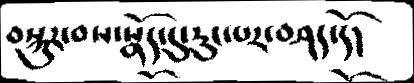བསྐུར་བས་སྣོད་དུ་རུང་པར་བཤད་དོ།
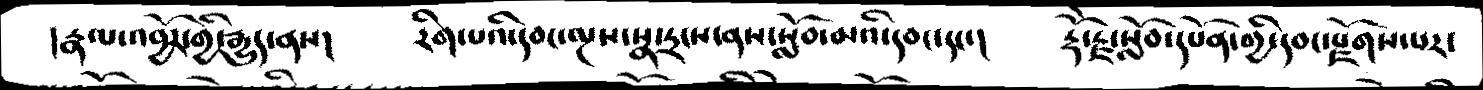།རྣལ་འབྱོར་གྱི་རྒྱུད་ནས།    རིག་པའི་དབང་ལྔས་སྣ་དྲངས་ནས་སློབ་མའི་དབང་དང་།   རྡོ་རྗེ་སློབ་དཔོན་གྱི་དབང་རྫོགས་པར་
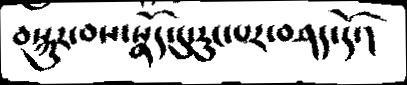བསྐུར་བས་སྣོད་དུ་རུང་པར་བཤད་དོ་།
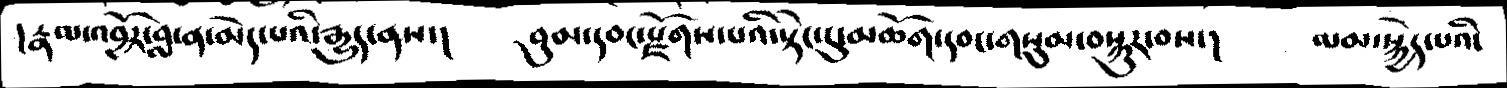།རྣལ་འབྱོར་བླ་ན་མེད་པའི་རྒྱུད་ནས་།    བུམ་དབང་རྫོགས་པའི་སྟེང་དུ་མཆོག་དབང་གསུམ་བསྐུར་བས།    ལམ་སྐྱེད་པའི་
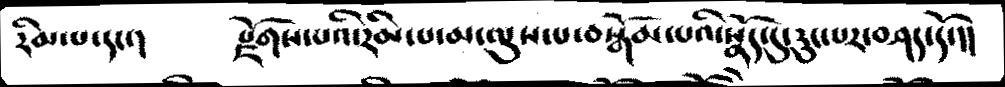རིམ་པ་དང་།   རྫོགས་པའི་རིམ་པ་མ་ལུས་པ་བསྒོམ་པའི་སྣོད་དུ་རུང་པར་བཤད་དོ་།།
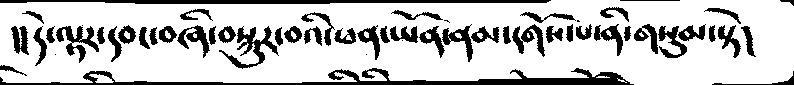།།དེ་ལྟར་དབང་བཞི་བསྐུར་བའི་ཕན་ཡོན་ནམ་དགོས་པ་ནི་གསུམ་སྟེ།
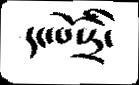དང་པོ་ཏྲི་
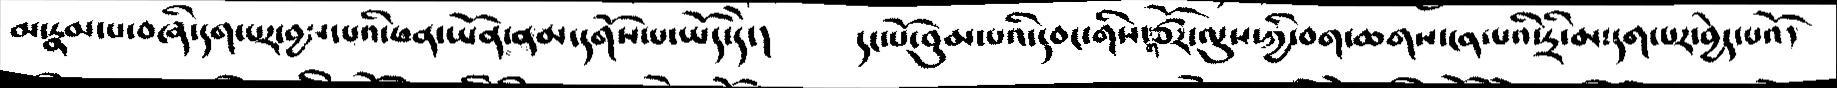མ་རྣམ་པ་བཞི་དག་པར་བྱས་པའི་ཕན་ཡོན་ནམ་དགོས་པ་ཡོད་དེ་།   དང་པོ་བུམ་པའི་དབང་གིས་གཙོར་ལུས་ཀྱི་བག་ཆགས་ངན་པའི་དྲི་མ་དག་པར་བྱེད་པའོ།
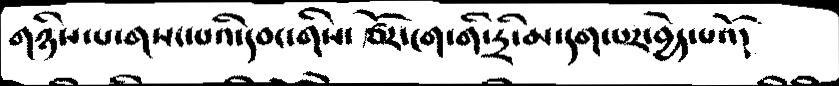གཉིས་པ་གསང་པའི་དབང་གིས་ཙོར་ངག་གི་དྲི་མ་དག་པར་བྱེད་པའོ།
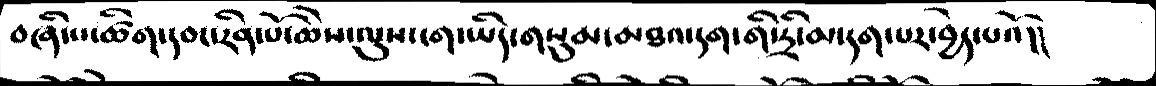བཞི་པ་ཚིག་དབང་རིན་པོ་ཆེས་ལུས་ངག་ཡིད་གསུམ་མཐའ་དག་གི་དྲི་མ་དག་པར་བྱེད་པའོ།།
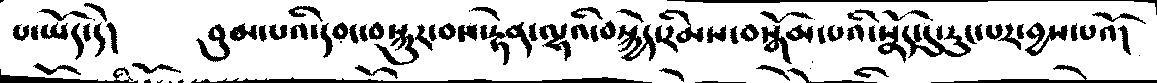པ་ཡོད་དེ།   བུམ་པའི་དབང་བསྐུར་བས་རྟེན་ལྷའི་བསྐྱེད་རིམས་བསྒོམ་པའི་སྣོད་དུ་རུང་པར་བྱས་པའོ།
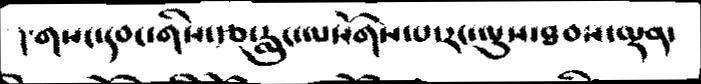།གསང་དབང་གིས་རྩ་རླུང་ལསོགས་པ་རང་ལུས་ཐབས་ལྡན་
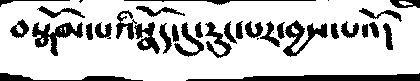བསྒོམ་པའི་སྣོད་དུ་རུང་པར་བྱས་པའོ།
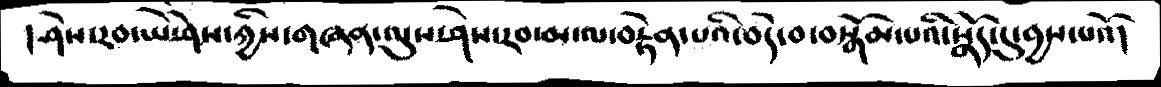།ཤེས་རབ་ཡེ་ཤེས་ཀྱིས་གཞན་ལུས་ཤེས་རབ་མ་ལ་བརྟེན་པའི་བདེ་བ་བསྒོམ་པའི་སྣོད་དུ་བྱས་པའོ།
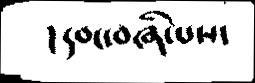།དབང་བཞི་པས་
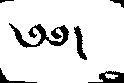༄༅།
